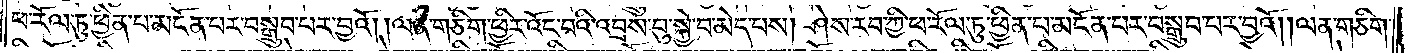ཕ་རོལ་ཏུ་ཕྱིན་པ་མངོན་པར་བསྒྲུབ་པར་བྱའོ། །ལན་གཅིག་ཕྱིར་འོང་བའི་འབྲས་བུ་སྐྱེ་བ་མེད་པས། ཤེས་རབ་ཀྱི་ཕ་རོལ་ཏུ་ཕྱིན་པ་མངོན་པར་བསྒྲུབ་པར་བྱའོ། །ལན་གཅིག་
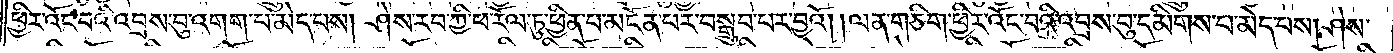ཕྱིར་འོང་བའི་འབྲས་བུ་འགག་པ་མེད་པས། ཤེས་རབ་ཀྱི་ཕ་རོལ་ཏུ་ཕྱིན་པ་མངོན་པར་བསྒྲུབ་བར་བྱའོ། །ལན་གཅིག་ཕྱིར་འོང་བའི་འབྲས་བུ་དམིགས་པ་མེད་པས། ཤེས་
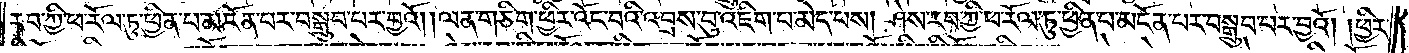རབ་ཀྱི་ཕ་རོལ་ཏུ་ཕྱིན་པ་མངོན་པར་བསྒྲུབ་པར་བྱའོ། །ལན་ཅིག་ཕྱིར་འོང་བའི་འབྲས་བུ་འཇིག་པ་མེད་པས། ཤེས་རབ་ཀྱི་ཕ་རོལ་ཏུ་ཕྱིན་པ་མངོན་པར་བསྒྲུབ་པར་བྱའོ། །ཕྱིར་
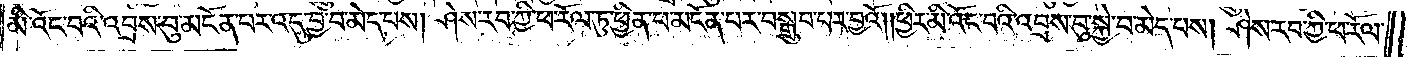མི་འོང་བའི་འབྲས་བུ་མངོན་པར་འདུ་བྱ་བ་མེད་པས། ཤེས་རབ་ཀྱི་ཕ་རོལ་ཏུ་ཕྱིན་པ་མངོན་པར་བསྒྲུབ་པར་བྱའོ། །ཕྱིར་མི་འོང་བའི་འབྲས་བུ་སྐྱེ་བ་མེད་པས། ཤེས་རབ་ཀྱི་ཕ་རོལ་
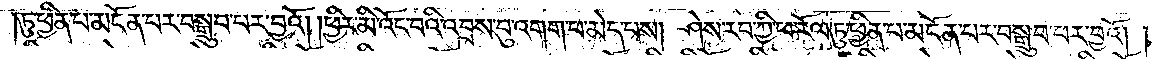ཏུ་ཕྱིན་པ་མངོན་པར་བསྒྲུབ་པར་བྱའོ། །ཕྱིར་མི་འོང་བའི་འབྲས་བུ་འགག་པ་མེད་པས། ཤེས་རབ་ཀྱི་ཕ་རོལ་ཏུ་ཕྱིན་པ་མངོན་པར་བསྒྲུབ་པར་བྱའོ། །
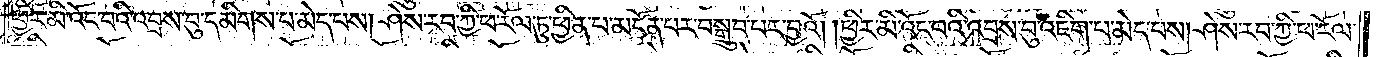ཕྱིར་མི་འོང་བའི་འབྲས་བུ་དམིགས་པ་མེད་པས། ཤེས་རབ་ཀྱི་ཕ་རོལ་ཏུ་ཕྱིན་པ་མངོན་པར་བསྒྲུབ་པར་བྱའོ། །ཕྱིར་མི་འོང་བའི་འབྲས་བུ་འཇིག་པ་མེད་པས། ཤེས་རབ་ཀྱི་ཕ་རོལ་
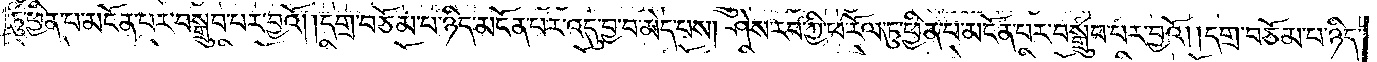ཏུ་ཕྱིན་པ་མངོན་པར་བསྒྲུབ་བར་བྱའོ། །དགྲ་བཅོམ་པ་ཉིད་མངོན་པར་འདུ་བྱ་བ་མེད་པས། ཤེས་རབ་ཀྱི་ཕ་རོལ་ཏུ་ཕྱིན་པ་མངོན་པར་བསྒྲུབ་པར་བྱའོ། །དགྲ་བཅོམ་པ་ཉིད་
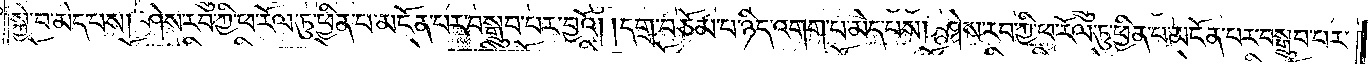སྐྱེ་བ་མེད་པས། ཤེས་རབ་ཀྱི་ཕ་རོལ་ཏུ་ཕྱིན་པ་མངོན་པར་བསྒྲུབ་པར་བྱའོ། །དགྲ་བཅོམ་པ་ཉིད་འགག་པ་མེད་པས། ཤེས་རབ་ཀྱི་ཕ་རོལ་ཏུ་ཕྱིན་པ་མངོན་པར་བསྒྲུབ་པར་
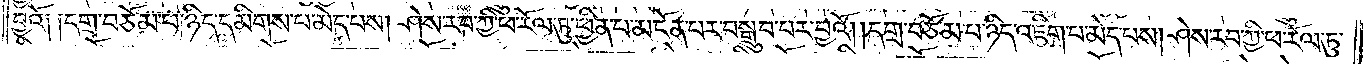བྱའོ༑ ༑དགྲ་བཅོམ་པ་ཉིད་དམིགས་པ་མེད་པས། ཤེས་རབ་ཀྱི་ཕ་རོལ་ཏུ་ཕྱིན་པ་མངོན་པར་བསྒྲུབ་པར་བྱའོ། །དགྲ་བཅོམ་པ་ཉིད་འཇིག་པ་མེད་པས། ཤེས་རབ་ཀྱི་ཕ་རོལ་ཏུ་
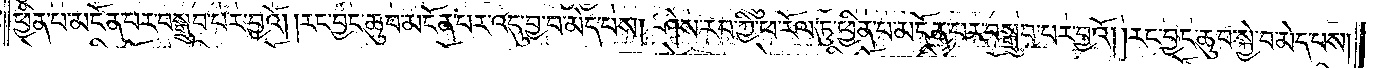ཕྱིན་པ་མངོན་པར་བསྒྲུབ་པར་བྱའོ། །རང་བྱང་ཆུབ་མངོན་པར་འདུ་བྱ་བ་མེད་པས། ཤེས་རབ་ཀྱི་ཕ་རོལ་ཏུ་ཕྱིན་པ་མངོན་པར་བསྒྲུབ་པར་བྱའོ། །རང་བྱང་ཆུབ་སྐྱེ་བ་མེད་པས།
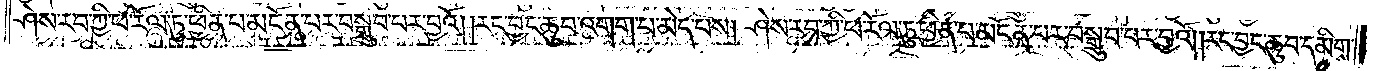ཤེས་རབ་ཀྱི་ཕ་རོལ་ཏུ་ཕྱིན་པ་མངོན་པར་བསྒྲུབ་པར་བྱའོ། །རང་བྱང་ཆུབ་འགག་པ་མེད་པས། ཤེས་རབ་ཀྱི་ཕ་རོལ་ཏུ་ཕྱིན་པ་མངོན་པར་བསྒྲུབ་པར་བྱའོ། །རང་བྱང་ཆུབ་དམིགས་
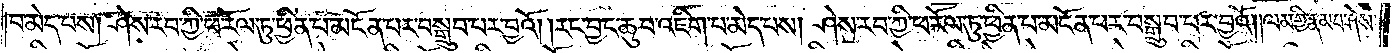པ་མེད་པས། ཤེས་རབ་ཀྱི་ཕ་རོལ་ཏུ་ཕྱིན་པ་མངོན་པར་བསྒྲུབ་པར་བྱའོ། །རང་བྱང་ཆུབ་འཇིག་པ་མེད་པས། ཤེས་རབ་ཀྱི་ཕ་རོལ་ཏུ་ཕྱིན་པ་མངོན་པར་བསྒྲུབ་པར་བྱའོ། །ལམ་གྱི་རྣམ་པ་ཤེས་
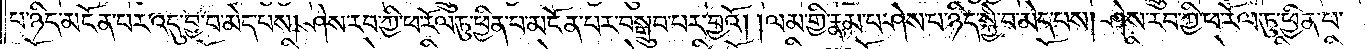པ་ཉིད་མངོན་པར་འདུ་བྱ་བ་མེད་པས། ཤེས་རབ་ཀྱི་ཕ་རོལ་ཏུ་ཕྱིན་པ་མངོན་པར་བསྒྲུབ་པར་བྱའོ། །ལམ་གྱི་རྣམ་པ་ཤེས་པ་ཉིད་སྐྱེ་བ་མེད་པས། ཤེས་རབ་ཀྱི་ཕ་རོལ་ཏུ་ཕྱིན་པ་
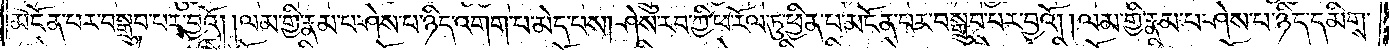མངོན་པར་བསྒྲུབ་པར་བྱའོ། །ལམ་གྱི་རྣམ་པ་ཤེས་པ་ཉིད་འགག་པ་མེད་པས། ཤེས་རབ་ཀྱི་ཕ་རོལ་ཏུ་ཕྱིན་པ་མངོན་པར་བསྒྲུབ་པར་བྱའོ། །ལམ་གྱི་རྣམ་པ་ཤེས་པ་ཉིད་དམིགས་
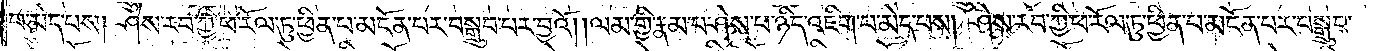པ་མེད་པས། ཤེས་རབ་ཀྱི་ཕ་རོལ་ཏུ་ཕྱིན་པ་མངོན་པར་བསྒྲུབ་པར་བྱའོ། །ལམ་གྱི་རྣམ་པ་ཤེས་པ་ཉིད་འཇིག་པ་མེད་པས། ཤེས་རབ་ཀྱི་ཕ་རོལ་ཏུ་ཕྱིན་པ་མངོན་པར་བསྒྲུབ་
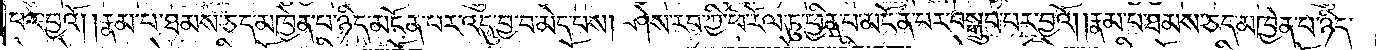པར་བྱའོ། །རྣམ་པ་ཐམས་ཅད་མཁྱེན་པ་ཉད་མངོན་པར་འདུ་བྱ་བ་མེད་པས། ཤེས་རབ་ཀྱི་ཕ་རོལ་ཏུ་ཕྱིན་པ་མངོན་པར་བསྒྲུབ་པར་བྱའོ། རྣམ་པ་ཐམས་ཅད་མཁྱེན་པ་ཉིད་
